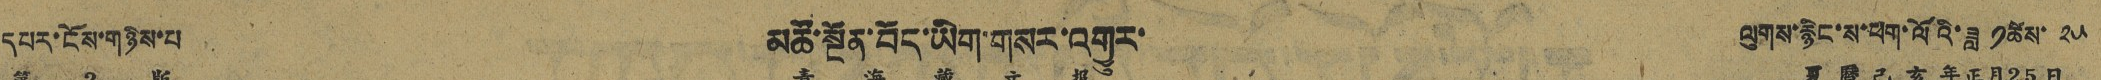དཔར་ངོས་གཉིས་པ མཚོ་སྔོན་བོད་ཡིག་གསར་འགྱུར་ ལུགས་རྙིང་ས་ཕག་ལོའི་ཟླ ༡ཚེས ༢༥
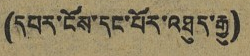(དཔར་ངོས་དང་པོར་འཐུད་རྒྱུ)
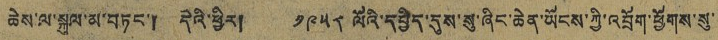ཆེས་ལ་སྐུལ་མ་བཏང་། དེའི་ཕྱིར། ༡༩༥༨ ལོའི་དབྱིད་དུས་སུ་ཞིང་ཆེན་ཡོངས་ཀྱི་འབྲོག་ཕྱོགས་སུ་
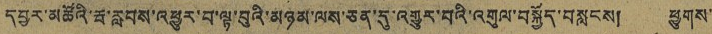དབྱར་མཚོའི་རྦ་རླབས་འཕྱུར་བ་ལྟ་བུའི་མཉམ་ལས་ཅན་དུ་འགྱུར་བའི་འགུལ་བསྐྱོད་བསླངས། ཕྱུགས་
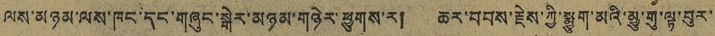ལས་མཉམ་ལས་ཁང་དང་གཞུང་སྒེར་མཉམ་གཉེར་ཕྱུགས་ར། ཆར་བབས་རྗེས་ཀྱི་སྨྱུག་མའི་མྱུ་གུ་ལྟ་བུར་
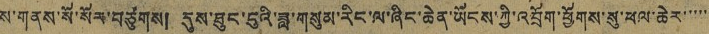ས་གནས་སོ་སོར་བཙུགས། དུས་ཐུང་ངུའི་ཟླ་གསུམ་རིང་ལ་ཞིང་ཆེན་ཡོངས་ཀྱི་འབྲོག་ཕྱོགས་སུ་ཕལ་ཆེར་་་་་
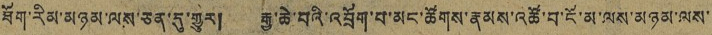ཐོག་རིམ་མཉམ་ལས་ཅན་དུ་གྱུར། རྒྱ་ཆེ་བའི་འབྲོག་པ་མང་ཚོགས་རྣམས་འཚོ་བ་ངོ་མ་ལས་མཉམ་ལས་
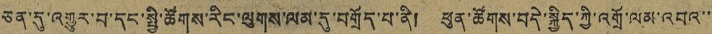ཅན་དུ་འགྱུར་བ་དང་སྤྱི་ཚོགས་རིང་ལུགས་ལམ་དུ་བགྲོད་པ་ནི། ཕུན་ཚོགས་བདེ་སྐྱིད་ཀྱི་འགྲོ་ལམ་འབའ་་
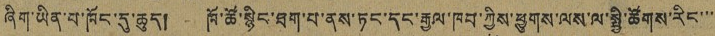ཞིག་ཡིན་པ་ཁོང་དུ་ཆུད། ཁོ་ཚོ་སྙིང་ཐག་པ་ནས་ཏང་དང་རྒྱལ་ཁབ་ཀྱིས་ཕྱུགས་ལས་ལ་སྤྱི་ཚོགས་རིང་་་
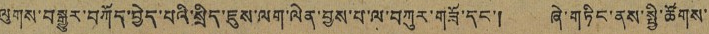ལུགས་བསྒྱུར་བཀོད་བྱེད་པའི་སྲིད་ཇུས་ལག་ལེན་བྱས་པ་ལ་བཀུར་གཟོ་དང་། ཞེ་གཏིང་ནས་སྤྱི་ཚོགས་
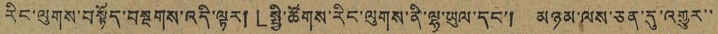རིང་ལུགས་བསྟོད་བསྔགས་འདི་ལྟར། 「སྤྱི་ཚོགས་རིང་ལུགས་ནི་ལྷ་ཡུལ་དང་། མཉམ་ལས་ཅན་དུ་འགྱུར་་
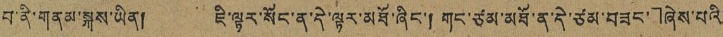བ་ནི་གནམ་སྐས་ཡིན། ཇི་ལྟར་སོང་ན་དེ་ལྟར་མཐོ་ཞིང་། གང་ཙམ་མཐོ་ན་དེ་ཙམ་བཟང་」ཞེས་པའི་
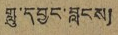གླུ་དབྱང་བླངས།
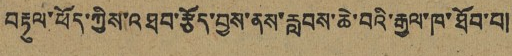བརྟུལ་ཕོད་ཀྱིས་འཐབ་རྩོད་བྱས་ནས་རླབས་ཆེ་བའི་རྒྱལ་ཁ་ཐོབ་བ།
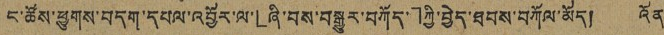ང་ཚོས་ཕྱུགས་བདག་དཔལ་འབྱོར་ལ་「ཞི་བས་བསྒྱུར་བཀོད་」ཀྱི་བྱེད་ཐབས་བཀོལ་མོད། འོན་
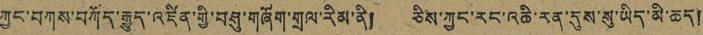ཀྱང་བཀས་བཀོད་རྒྱུད་འཛིན་གྱི་བཤུ་གཞོག་གྲལ་རིམ་ནི། ཅིས་ཀྱང་རང་འཆི་རན་དུས་སུ་ཡིད་མི་ཆད།
